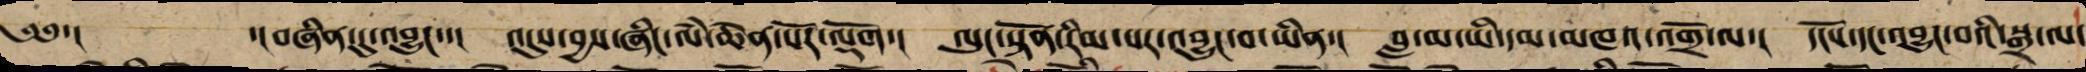༄༅་། ་། བཞིན་དུ་འབྱུང་་། འདུས་བྱས་ཞིང་ལཾ་ཆེན་པོར་ལྡོག་། ལུང་སྟོན་རིམ་པར་འབྱུང་བ་ཡིན་། བླ་མ་ཡི་དམ་མཁའ་འགྲོ་ལ་། དངོས་དང་འབྱུང་བའི་སྒྲ་ལ་
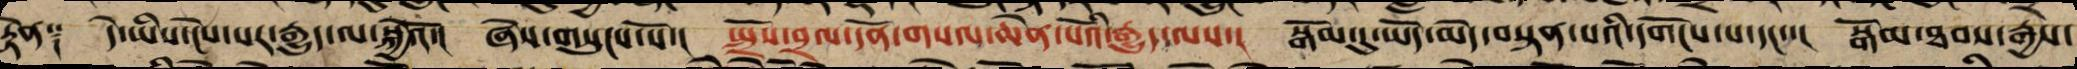རྟེན༑ དེ་ཡིས་ངེས་པར་རྒྱུད་ལ་སྐྱེའོ་། ཞེས་གསུངས་སོ་། སྤྲོས་བྲལ་དོན་གསལ་ཆེན་པོའི་རྒྱུད་ལས་། སྒོམ་དུ་ཡོད་མེེད་བསྟན་པའི་དགོངས་པ་དང་་། སྒོམ་ཐབས་རྒྱས་
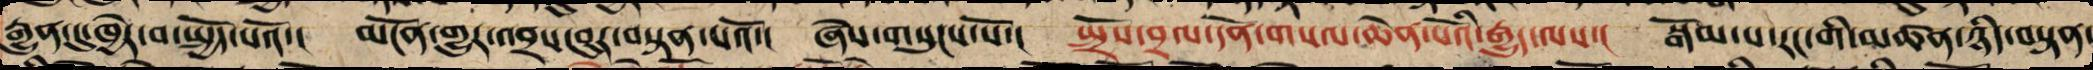རྒྱུན་ཏུ་ཁྱེར་བ་སྤྱོད་པའོ་། མངོན་གྱུར་འབྲས་བུར་བསྟན་པའོ་། ཞེས་གསུངས་སོ་། སྤྲོས་བྲལ་དོན་གསལ་ཆེན་པོའི་རྒྱུད་ལས་། སྒོམ་པ་རང་གི་མཚན་ཉིད་བསྟན་
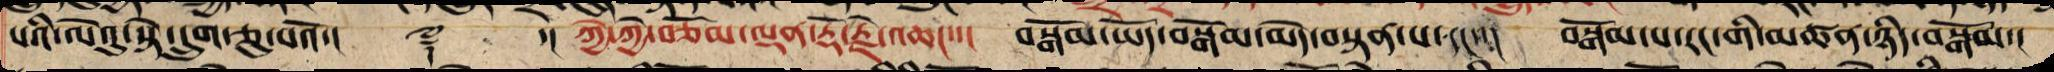པའི་ལེའུ་སྟེ་དྲུག་ཅུ་པའོ་།། ༈ ་། ཀྱེ་ཀྱེ་བཅོམ་ལྡན་རྡོ་རྗེ་འཆང་་། བསྒོམ་ཡོད་བསྒོམ་མེད་བསྟན་པ་དང་་། བསྒོམ་པ་རང་གི་མཚན་ཉིད་བསྒོམ་།
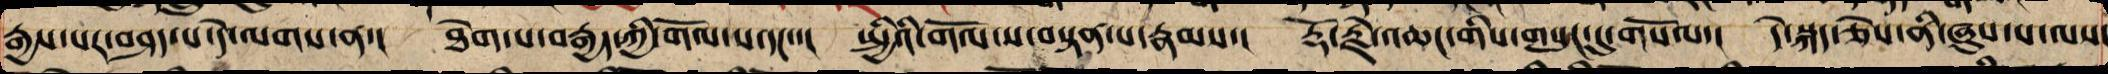རྒྱས་པར་བཤད་པ་དེ་ལགས་ན་། ཐེག་པ་བརྒྱད་ཀྱི་གོལ་ས་དང་་། སྤྱི་ཡི་གོལ་ས་བསྟན་པ་རྣམས་། རྡོ་རྗེ་འཆང་གིས་གསུང་དུ་གསོལ་། དེ་སྐད་ཅེས་ནི་ཞུས་པ་ལས་
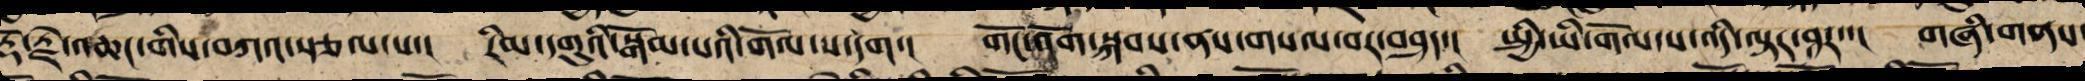རྡོ་རྗེ་འཆང་གིས་བཀའ་སྩལ་པ་། རིམ་དགུའི་སྒོམ་པའི་གོལ་ས་དག་། གོང་འོག་སྐབས་ནས་གསལ་བར་བཤད་། སྤྱི་ཡི་གོལ་ས་འདི་ལྟར་བཤད་་། གཞི་གནས་
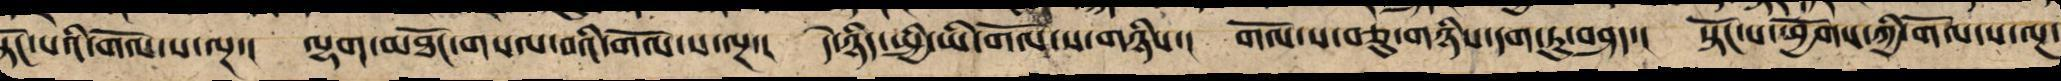སྟོང་པའི་གོལ་ས་ལྔ་། ལྷག་མཐོང་གསལ་བའི་གོལ་ས་ལྔ་། དེ་ཉིད་སྤྱི་ཡི་གོལ་ས་གཉིས་། གོལ་ས་བཅུ་གཉིས་དག་ཏུ་བཤད་། སྟོང་པའི་ཕྱོགས་ཀྱི་གོལ་ས་ལྔ་
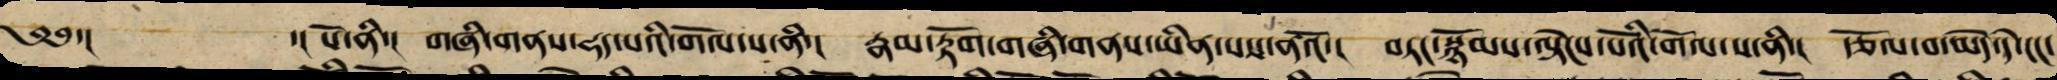༄༅་། ་། པོ་ནི་། གཞི་གནས་ཧད་པའི་གོལ་ས་ནི་། རྣམ་རྟོག་གཞི་གནས་ཡིན་པས་ནའོ་། བཏང་སྙོམས་ལྟེངས་པོའི་གོལ་ས་ནི་། རྩོལ་བ་མེད་དེ་ངང་
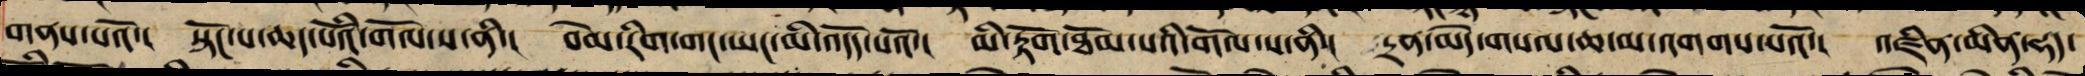གནས་པའོ་། སྟོང་པ་ཆད་པོའི་གོལ་ས་ནི་། བེམ་རིག་གང་ཡང་མི་འདོད་པའོ་། མི་རྟོག་ཐོམ་པའི་གོལ་ས་ནི་། དྲན་མེད་གསལ་ཆ་མ་འགགས་པའོ་། འཛིན་མིན་ཧད་
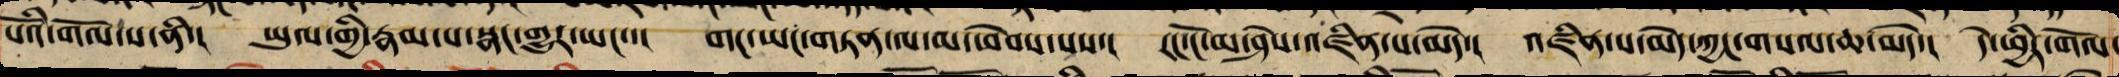པོའི་གོལ་ས་ནི་། ཡུལ་གྱི་རྣམ་པ་སྣང་གྱུར་ཡང་་། གང་ཡང་གཏན་ལ་མ་ཕེབས་པས་། རང་ངོ་མ་ཤེས་འཛིན་པ་མེད་། འཛིན་པ་མེད་ཀྱང་གསལ་ཆ་མེད་། དེ་ཕྱིར་གོལ་
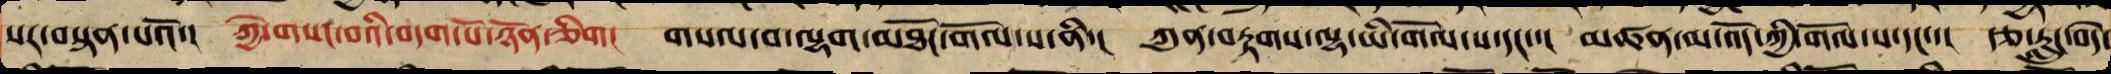སར་བསྟན་པའོ་། ཀྱེ་གསང་བའི་བདག་པོ་ཉོན་ཅིག། གསལ་བ་ལྷག་མཐོང་གོལ་ས་ནི་། ཀུན་བརྟགས་ལྷ་ཡི་གོལ་ས་དང་་། མཚན་མ་འོད་ཀྱི་གོལ་ས་དང་་། རྩ་རླུང་བདེ་
